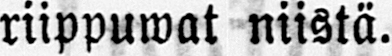riippuwat niistä.
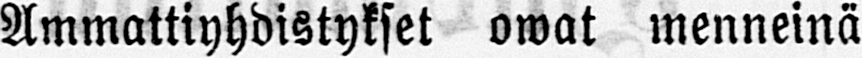Ammattiyhdistykset owat menneinä
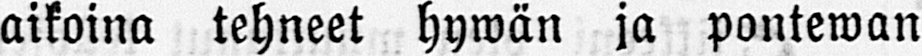aikoina tehneet hywän ja pontewan
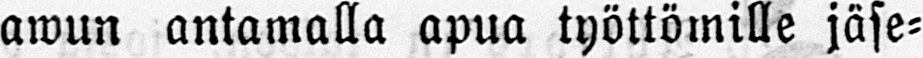awun antamalla apua työttömille jäse-
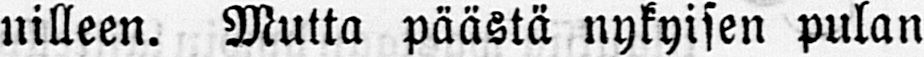nilleen. Mutta päästä nykyisen pulan
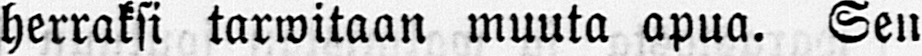herraksi tarwitaan muuta apua. Sen
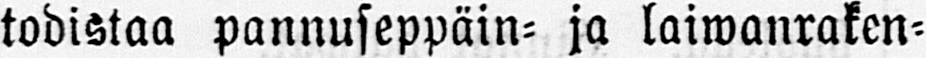todistaa pannuseppäin- ja laiwanraken-
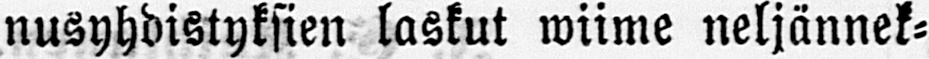nusyhdistyksien laskut wiime neljännek-
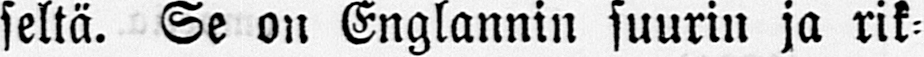seltä. Se on Englannin suurin ja rik-
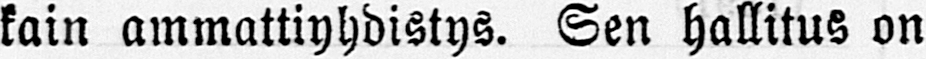kain ammattiyhdistys. Sen hallitus on
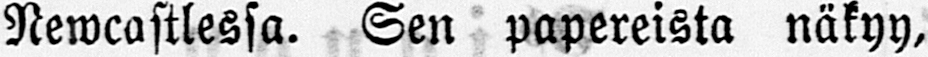Newcastlessa. Sen papereista näkyy,
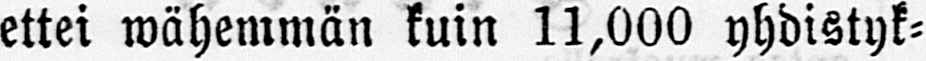ettei wähemmän kuin 11,000 yhdistyk-
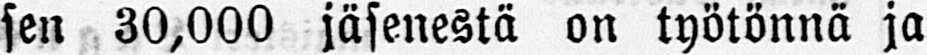sen 30,000 jäsenestä on työtönnä ja
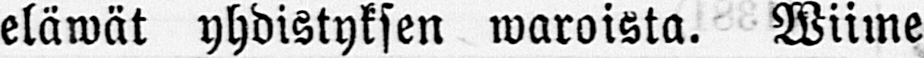eläwät yhdistyksen waroista. Wiime
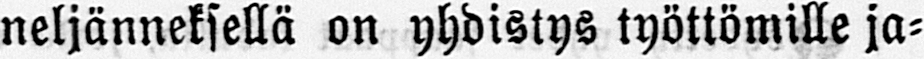neljänneksellä on yhdistys työttömille ja-
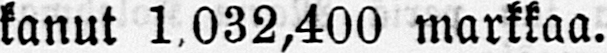kanut 1,032,400 markkaa.
